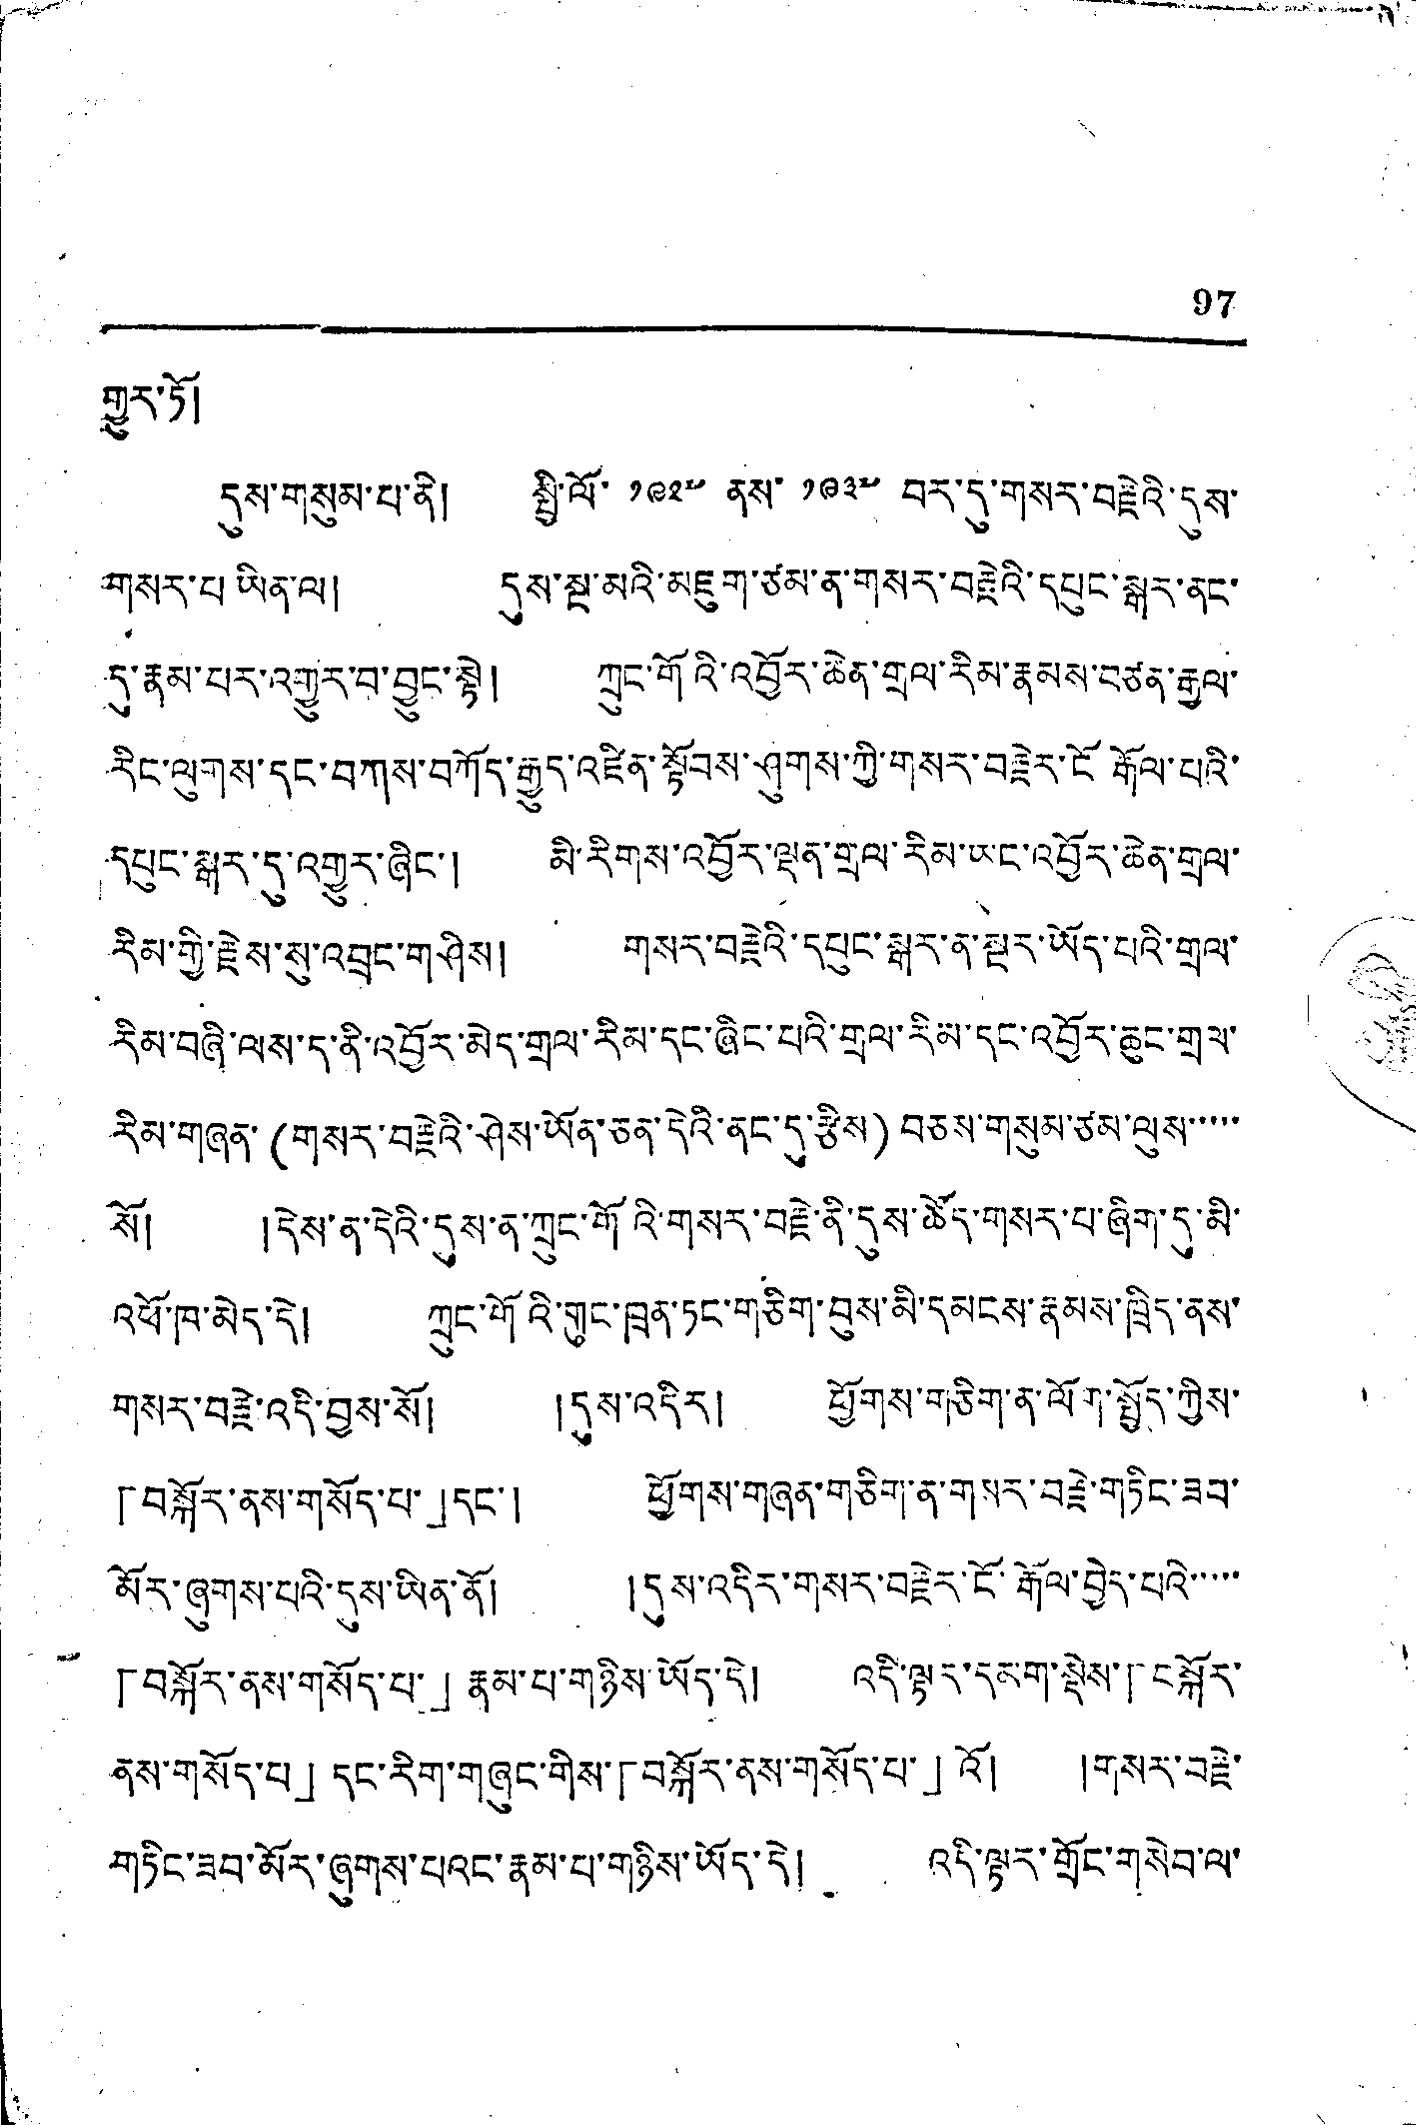97
གྱུར་ཏོ།
དུས་གསུམ་པ་ནི། སྤྱི་ལོ་ ༡༩༢༧ ནས་ ༡༩༣༧ བར་དུ་གསར་བརྗེའི་དུས་
གསར་པ་ཡིན་ལ། དུས་སྔ་མའི་མཇུག་ཙམ་ན་གསར་བརྗེའི་དཔུང་སྒར་ནང་
དུ་རྣམ་པར་འགྱུར་བ་བྱུང་སྟེ། ཀྲུང་གོའི་འབྱོར་ཆེན་གྲལ་རིམ་རྣམས་བཙན་རྒྱལ་
རིང་ལུགས་དང་བཀས་བཀོད་རྒྱུད་འཛིན་སྟོབས་ཤུགས་ཀྱི་གསར་བརྗེར་ངོ་རྒོལ་པའི་
དཔུང་སྒར་དུ་འགྱུར་ཞིང་། མི་རིགས་འབྱོར་ལྡན་གྲལ་རིམ་ཡང་འབྱོར་ཆེན་གྲལ་
རིམ་གྱི་རྗེས་སུ་འབྲུང་གཤིས། གསར་བརྗེའི་དཔུང་སྒར་ན་སྔར་ཡོད་པའི་གྲལ་
རིམ་བཞི་ལས་དུ་ནི་འབྱོར་མེད་གྲལ་རིམ་དང་ཞིང་པའི་གྲལ་རིམ་དང་འབྱོར་ཆུང་གྲལ་
རིམ་གཞན་(གསར་བརྗེའི་ཤེས་ཡོན་ཅན་དེའི་ནང་དུ་རྩིས) བཅས་གསུམ་ཙམ་ལུས་་་་་་
སོ། །དེས་ན་དེའི་དུས་ན་ཀྲུང་གོའི་གསར་བརྗེ་ནི་དུས་ཚོད་གསར་པ་ཞིག་དུ་མི་
འཕོ་ཁ་མེད་དེ། ཀྲུང་གོའི་གུང་ཁྲན་ཏང་གཅིག་བུས་མི་དམངས་རྣམས་ཁྲིད་ནས་
གསར་བརྗེ་འདི་བྱས་སོ། །དུས་འདིར། ཕྱོགས་གཅིག་ན་ལོག་སྤྱོད་ཀྱིས་
「བསྐོར་ནས་གསོད་པ་」དང་། ཕྱོགས་གཞན་གཅིག་ན་གསར་བརྗེ་གཏིང་ཟབ་
མོར་ཞུགས་པའི་དུས་ཡིན་ནོ། །དུས་འདིར་གསར་བརྗེད་ངོ་རྒོལ་བྱེད་པའི་་་་་
「བསྐོར་ནས་གསོད་པ་」རྣམ་པ་གཉིས་ཡོད་དེ། འདི་ལྟར་དམག་སྡེས་「བསྐོར་
ནས་གསོད་པ」དང་རིག་གཞུང་གིས་「བསྐོར་ནས་གསོད་པ་」འོ། །གསར་བརྗེ་
གཏིང་ཟབ་མོར་ཞུགས་པའང་རྣམ་པ་གཉིས་ཡོད་དེ། འདི་ལྟར་གྲོང་གསེབ་ལ་
